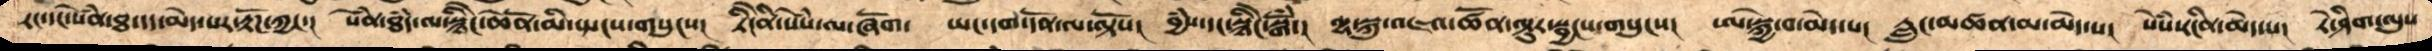རང་དང་སེནཾ་ཐ་དད་མེད་པར་རྟོཌ་ཀྱང་།  སེནཾ་ཐཾད་ལ་སྙིངེ་ཆེནོ་མི་སྤངས་གསུངས།  ཏིངེཛིན་སེསཾ་ལ་ཞོག།  ཡང་དག་དོན་ལ་ལྟོས།  བྱཾས་དང་སྙིངེ་སྒོཾ།  ལྷ་སྐུ་འཇའ་ཚོན་ལྟུར་སྦྱངས་གསུངས།  ཨ་སྐྱེ་བ་མེད་པ།  རླུང་མཚན་མ་མེད་པ།  སེསཾ་རངིན་མེད་པ།  རེ་ཤིག་ལུས་
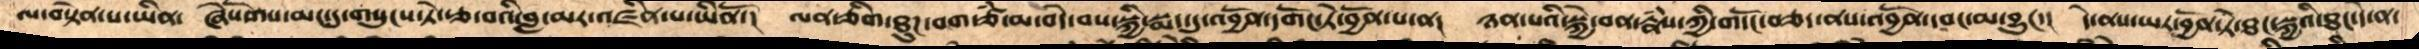ལ་བསྟེན་པ་ཡིན་  ཞེསོགས་མང་དུ་གསུངས་ཏེ་རྩ་བའི་བླ་མར་འཛིན་པ་ཡིནོ།  ལན་ཅིག་ཐུཌ་བག་ཙཾ་མ་བདེ་བས་སྐྱི་སྨད་དུ་འབྱོན་དགོང་ཏེ་བྱོན་པ་ན། ཉན་པའི་སྐྱེ་བན་རྣཾས་ཀྱི་གདོང་བཅད་ནས་འབྱོན་དབང་མ་བྱུང་།  དེ་ནས་ཡར་བྱོན་ཏེ་ཐང་སྐྱའི་ཐང་དེ་ན་
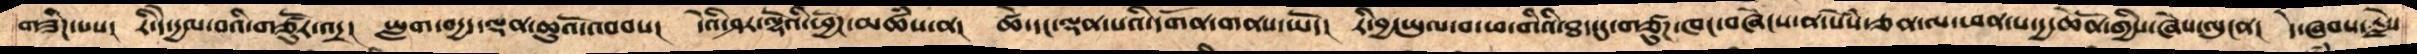གཟིཌ་པས།  རི་དེ་དྱལ་བའི་གཙུགོར་འདྲ།  ཡླག་བདྱད་ལྡན་ཆུའོ་འབབས།   དེའི་ཤར་ལྷོའི་ཕྱོཌ་མཚཾས་ན།  ཚེ་དང་ལྡན་པའི་དགོན་གནས་ཡོད།  རི་བྱང་ཡུལ་བ་ཕ་གིའི་ཐད་དུ་གཙུཌ་ཁང་བཞེངས་ན་སེསཾ་ཅན་ལ་ཕན་པ་དྱ་ཆེནོ་གྱིས་ཞེས་ལུངན།  དེ་ཞབས་རྗེས་
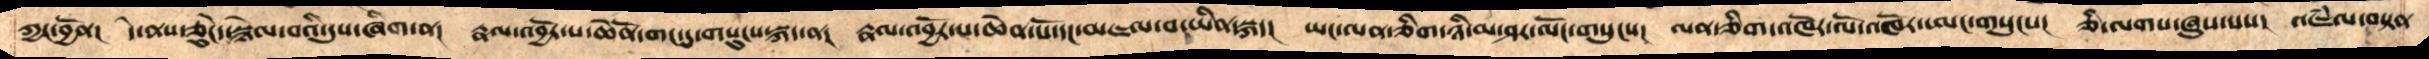ཀྱང་བྱོན།  དེ་ནས་ཅེུངད་སྙེལ་བའི་དུས་ཞིག་ན།  རྣལ་འབྱོར་པ་ཆེནོ་གང་དུ་གསུངས་སྐད་ན།   རྣལ་འབྱོར་པ་ཆེན་པོ་དང་མཇལ་བ་ཡིན་སྐད།  ཡང་ལན་ཅིག་ཉི་མ་ཤར་ལོང་གསུངས།  ལན་གཅིག་འཁོར་ལོ་འཁོར་ཨང་གསུངས།  ཅི་ལགས་ཞུས་པས།  འཇཾལ་བསྟན་
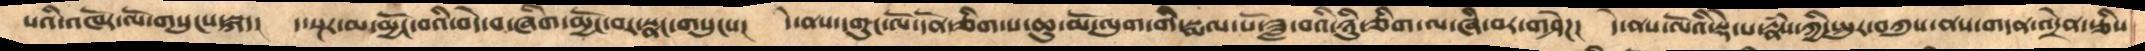པའི་འཁོར་ལོ་གསུང་སྐད།  ད་སྔར་མ་མྱོང་བའི་བདེ་བ་ཞིག་མྱོང་བར་སྣང་གསུངས།  དེ་ནས་དགུང་ལོ་དོན་ཅིག་པ་ཆུ་མོ་ལུག་གི་སྨལ་པོ་ཟླ་བའི་ཉིུ་ཅིག་ལ་ཞི་བར་གཤེཌ།   དེ་ནས་ལོའི་སྡེ་པ་རྣཾསཀྱི་སྤུར་བཀུས་ནས་གདན་འདྲེན་རྩིས
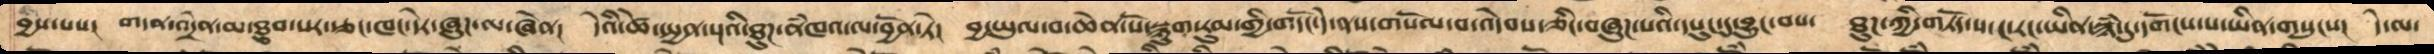བྱས་པས།  གདན་འདྲེན་མ་ཐུབ་པར་རྩང་ཁང་དེར་ཞུཌ་ལ་ཞེན།   དེའི་ཚེ་སྤྱན་སྔའི་ཐུཌ་ནཾཁའ་ལ་བྱོན་ཏེ།   བྱ་ཡུལ་བ་ཆེན་པོ་སྙུག་རུམ་གྱི་གདོང་དེ་ནས་གསོལ་བ་འདེབས་ཅིང་བཞུཌ་པའི་པང་དུ་བྱུང་བས།  ཐུཌ་ཀྱི་གཏོད་ས་ང་རང་ཡིན་སྙཾ་དུ་དགོངས་པ་ཡིན་གསུངས། དེ་ལ་
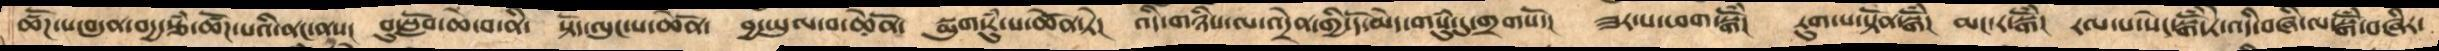ཚོཌ་པ་བདུན་བདྱ་ཙཾ་ཚོཌ་པའི་ནང་ནས།   བུ་སློབ་ཆེ་བ་ནི།  སྟོད་ལུང་པ་ཆེནོ།  བྱ་ཡུལ་བ་ཆེནོ།  སྨྱུག་རུཾ་པ་ཆེནོ་ཏེ།  འདི་གཉིས་ལ་འདྲེན་གྱི་དོ་མེད་གསུཾ་དུ་གྲགས་སོ།  ཟར་པ་ཕག་སྒོཾ།  རུག་པ་སྟོན་སྒོཾ།  མང་ར་སྒོཾ།  རལ་པ་སེང་སྒོཾ་ཏེ་འདི་བཞི་ལ་སྒོཾ་བཞིར་
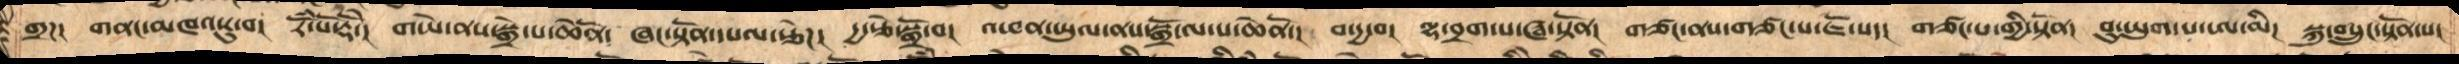གྲཌ། གནང་མཁའ་རུ་བ།  རོཾ་པོ་རྡོེ།  གཡེ་ནས་སྒྲེ་པ་ཆེནོ།   ཞང་སྟོན་དཔལ་བརྩེཌ།  དྱ་རྩེ་སྒྲོ་བ།  འཕན་ཡུལ་ནས་སྒྲོ་ལ་པ་ཆེན་པོ་།  བ་དྱ་བ།   ལྷ་བྲག་པ་ཝ་སྟོན།  གཙང་ནས་གཙང་པ་ཇོ་སད།  གཙང་པ་གྱི་སྟོན།  འུ་ཡུག་པ་ཨ་མི།  སྐུ་བསྲུང་སྟོན་པ།
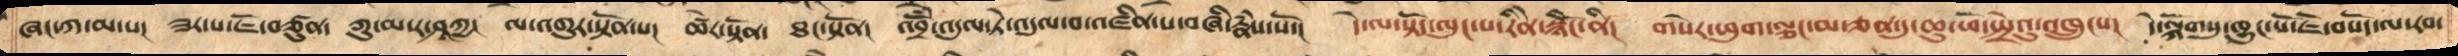ཞང་ཀ་མ་པ། ཟར་པ་ཇོ་བཙུན།  ཀུ་མ་ར་ཤཱཀྱ།  ལ་འགུར་སྟོན་པ།  ཚེར་སྟོན།  ཐང་སྟོན།  འབྲོཾ་འདུལ་ཏེ་འདུལ་བ་འཛིན་པ་བཞི་རྣཾས་སོ་།  དེ་ལ་སྟོད་ལུང་པ་རིནེ་སྙིངོ་ནི།  གསེར་ཕུག་ལྕང་མ་ཅན་དུ་ཆུ་ཕོ་སྤྲེའུ་སྐུ་འཁྲུངས།   དེ་ལྐོགསུ་ཁྱུང་པོ་ཇོ་བསོད་ལ་རབ་
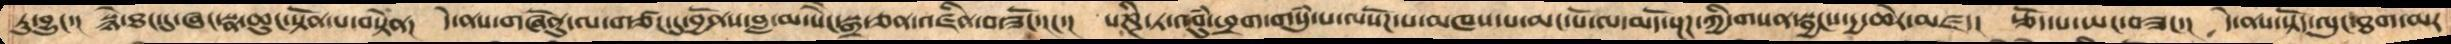ཏུ་བྱུང་། སྙེ་ཐང་དུ་ཞང་སྣ་ཆུང་སྟོན་པ་བསྟེན།  དེ་ནས་གཞོནུ་ལ་གཙང་དུ་བྱོནས་བླ་མ་སཻང་སྒྲ་ཅན་འཛིན་བཟོང་དང་།  པཎྜི་ཏ་འབུཾ་ཕྲག་གསུཾ་པ་ལསོཌ་པ་མཁས་པ་མང་པོ་ལ་མདོ་སྔཌ་ཀྱི་གསན་སྦྱངས་དྱ་ཆེར་མཛད།  རྩོད་པ་ཡང་བཟང་།  དེ་ནས་སྟོད་ལུང་ཐག་མར
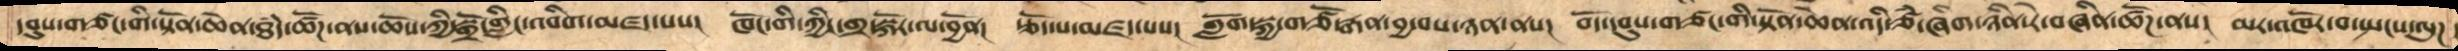དབུས་གཙང་གི་སྟོན་ཆེན་ཐཾད་ཚོཌ་ནས་ཆོས་ཀྱི་སྒྲོ་གླིང་འབིག་མཛད་པས།  ཁོང་གི་ཀྱང་གྲ་སྐོར་ལ་བྱོན།  རྩོད་པ་མཛད་པས།  གློག་སྐྱ་གཙོ་རྒན་བྱ་བས་ཉན་ནས།  བོད་དབུས་གཙང་གི་སྟོན་ཆེན་འདི་ཙཾ་ཞིག་ཉིན་རེ་བཞིན་ཚོཌ་ནས།  མར་འཁོར་བ་སྤངས་ལུཌ
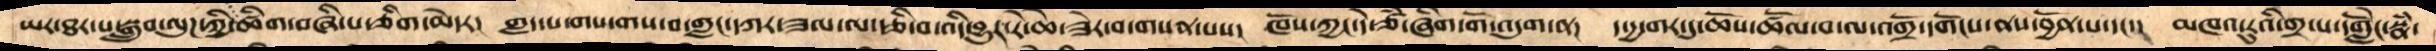ཡར་ཐར་པ་སྒྲུབ་ལུཌ་ཀྱི་ཚིག་བཞི་པ་ཅིག་མེདར།  གླད་པ་གས་གས་བ་གླང་དཀར་ཟལ་ལ་རྩི་བ་འདི་བྱུར་རེ་ཆེ་ཟེར་བ་གསན་པས།  ཁོས་ཀྱང་དེ་ཙཾ་ཞིག་གོ་འདུག་ན།  ད་དྱ་གར་དུ་ཆོས་ཚོལ་བ་ལ་འགྲོ་དགོངས་ནས་བྱོན་པ་དང་།  མཁའ་རུའི་གྲ་པ་དགླེོང་སྣཾ་
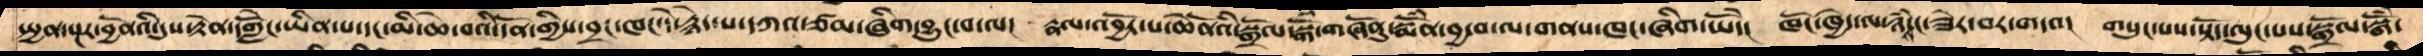སྤྱན་སྔར་བྱོནའི་དུས་རྟེན་དགླེངོ་ཡིན་པ་དང་མི་ཆེ་བའི་དོན་གྱིས་བྲང་ཁང་དེ་རྙེད་པ་དཀའ་ཙམ་ཞིག་བྱུང་བ་ལ།  རྣལ་འབྱོར་པ་ཆེནོའི་སྒྲོལ་སྒོཾ་གཞོནུ་སྨོནཾ་བྱ་བ་ལ་གནས་ཁང་ཞིག་ཡོདཾ།  ཁོང་ཁྱེད་ལ་ཉཾས་ང་ཟེར་བར་གདའ།  གསུང་པས་སྟོད་ལུང་པས་སྒྲོལ་སྒོཾ་
